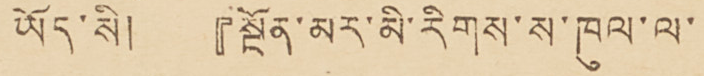ཡོད་སི། 『སྔོན་མར་མི་རིགས་ས་ཁུལ་ལ་
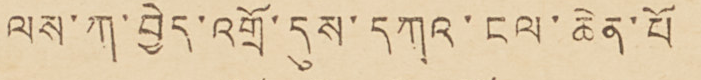ལས་ཀ་བྱེད་འགྲོ་དུས་དཀའ་ངལ་ཆེན་པོ
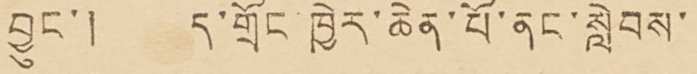བྱུང་། ད་གྲོང་ཁྱེར་ཆེན་པོ་ནང་སླེབས་
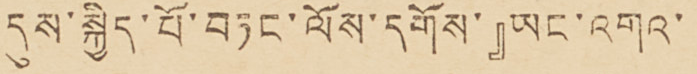དུས་སྐྱིད་པོ་བཏང་ལོས་དགོས་』ཡང་འགའ་
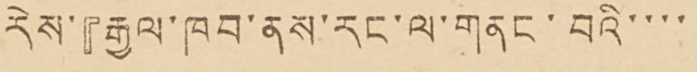རེས་『རྒྱལ་ཁབ་ནས་རང་ལ་གནང་བའི་་་་
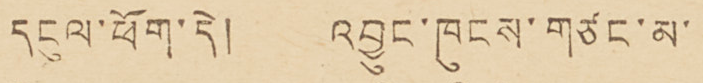དངུལ་ཕོག་དེ། འབྱུང་ཁུངས་གཙང་མ་
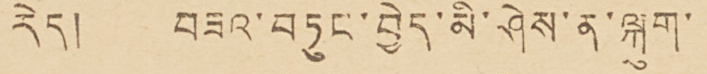རེད། བཟའ་བཏུང་བྱེད་མི་ཤེས་ན་ལྐུག་
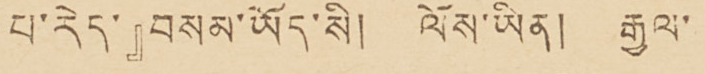པ་རེད་』བསམ་ཡོད་སི། ལོས་ཡིན། རྒྱལ་
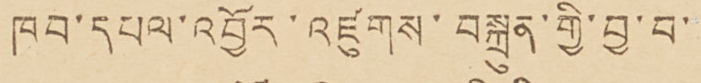ཁབ་དཔལ་འབྱོར་འཛུགས་བསྐྲུན་གྱི་བྱ་བ་
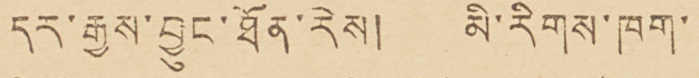དར་རྒྱས་བྱུང་ཐོན་རེས། མི་རིགས་ཁག་
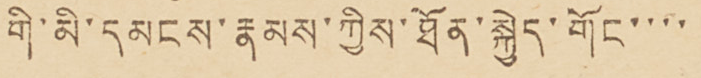གི་མི་དམངས་རྣམས་ཀྱིས་ཐོན་སྐྱེད་གོང་་་་
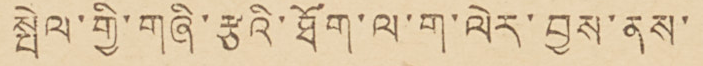སྤེལ་གྱི་གཞི་རྩའི་ཐོག་ལ་ག་ལེར་བྱས་ནས་
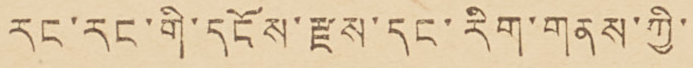རང་རང་གི་དངོས་རྫས་དང་རིག་གནས་ཀྱི་
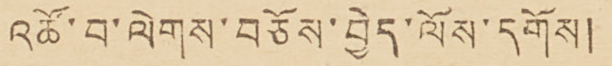འཚོ་བ་ལེགས་བཅོས་བྱེད་ལོས་དགོས།
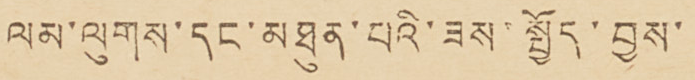ལམ་ལུགས་དང་མཐུན་པའི་ཟས་སྤྱོད་བྱས་
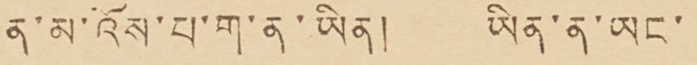ན་མ་འོས་པ་ག་ན་ཡིན། ཡིན་ན་ཡང་
